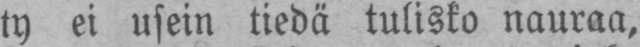ty ei usein tiedä tulisko nauraa,
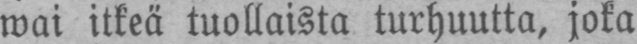wai itkeä tuollaista turhuutta, joka
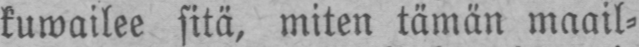kuwailee sitä, miten tämän maail-
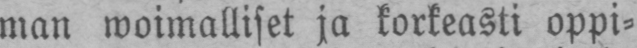man woimalliset ja korkeasti oppi-
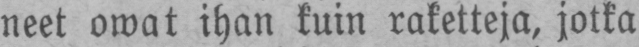neet owat ihan kuin raketteja, jotka
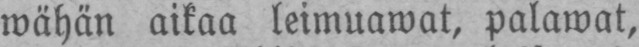wähän aikaa leimuawat, palawat,
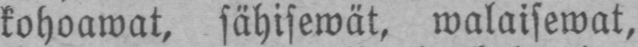kohoawat, sähisewät, walaisewat,
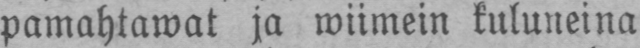pamahtawat ja wiimein kuluneina
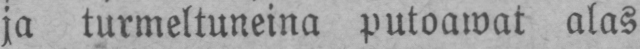ja turmeltuneina putoawat alas
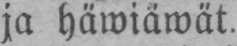ja häwiäwät.
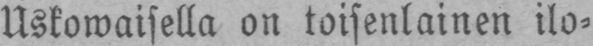Uskowaisella on toisenlainen ilo-
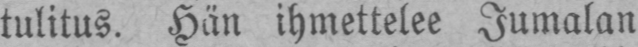tulitus. Hän ihmettelee Jumalan
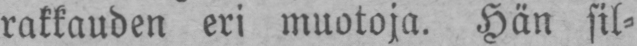rakkauden eri muotoja. Hän sil-
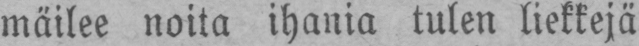mäilee noita ihania tulen liekkejä
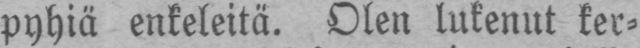pyhiä enkeleitä. Olen lukenut ker-
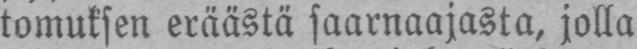tomuksen eräästä saarnaajasta, jolla
